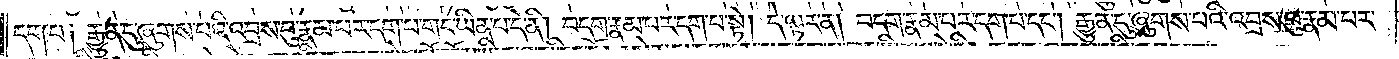དག་པ། རྒྱུན་དུ་ཞུགས་པའི་འབྲས་བུ་རྣམ་པར་དག་པ་གང་ཡིན་པ་དེ་ནི། བདག་རྣམ་བར་དག་པ་སྟེ། དེ་ལྟར། ན་བདག་རྣམ་པར་དག་པ་དང༌། རྒྱུན་དུ་ཞུགས་པའི་འབྲས་བུ་རྣམ་པར་
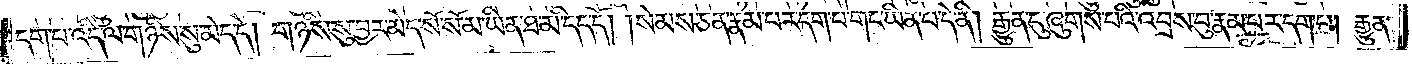དག་པ་འདི་ལ་གཉིས་སུ་མེད་དེ། གཉིས་སུ་བྱར་མེད་སོ་སོ་མ་ཡིན་ཐ་མི་དད་དོ། །སེམས་ཅན་རྣམ་པར་དག་པ་གང་ཡིན་པ་དེ་ནི། རྒྱུན་དུ་ཞུགས་པའི་འབྲས་བུ་རྣམ་པར་དག་པ། རྒྱུན་
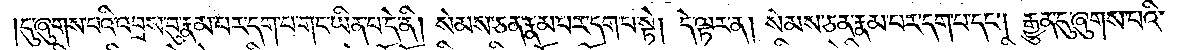དུ་ཞུགས་པའི་འབྲས་བུ་རྣམ་པར་དག་པ་གང་ཡིན་པ་དེ་ནི། སེམས་ཅན་རྣམ་པར་དག་པ་སྟེ། དེ་ལྟར་ན། སེམས་ཅན་རྣམ་པར་དག་པ་དང༌། རྒྱུན་དུ་ཞུགས་པའི་
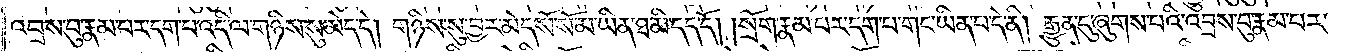འབྲས་བུ་རྣམ་པར་དག་པ་འདི་ལ་གཉིས་སུ་མེད་དེ། གཉིས་སུ་བྱར་མེད་སོ་སོ་མ་ཡིན་ཐ་མི་དད་དོ། །སྲོག་རྣམ་པར་དག་པ་གང་ཡིན་པ་དེ་ནི། རྒྱུན་དུ་ཞུགས་པའི་འབྲས་བུ་རྣམ་པར་
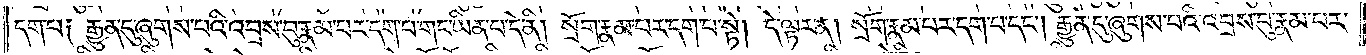དག་པ། རྒྱུན་དུ་ཞུགས་པའི་འབྲས་བུ་རྣམ་པར་དག་པ་གང་ཡིན་པ་དེ་ནི། སྲོག་རྣམ་པར་དག་པ་སྟེ། དེ་ལྟར་ན། སྲོག་རྣམ་པར་དག་པ་དང༌། རྒྱུན་དུ་ཞུགས་པའི་འབྲས་བུ་རྣམ་པར་
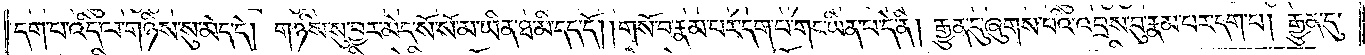དག་པ་འདི་ལ་གཉིས་སུ་མེད་དེ། གཉིས་སུ་བྱར་མེད་སོ་སོ་མ་ཡིན་ཐ་མི་དད་དོ། །གསོ་བ་རྣམ་པར་དག་པ་གང་ཡིན་པ་དེ་ནི། རྒྱུན་དུ་ཞུགས་པའི་འབྲས་བུ་རྣམ་པར་དག་པ། རྒྱུན་དུ་
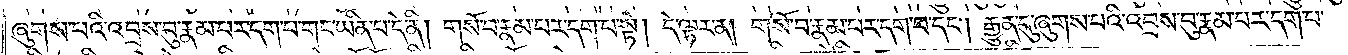ཞུགས་པའི་འབྲས་བུ་རྣམ་པར་དག་པ་གང་ཡིན་པ་དེ་ནི། གསོ་བ་རྣམ་པར་དག་པ་སྟེ། དེ་ལྟར་ན། གསོ་བ་རྣམ་པར་དག་པ་དང༌། རྒྱུན་དུ་ཞུགས་པའི་འབྲས་བུ་རྣམ་པར་དག་པ་
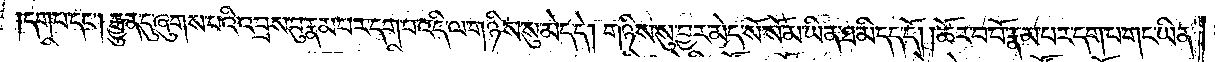དག་པ་དང༌། རྒྱུན་དུ་ཞུགས་པའི་འབྲས་བུ་རྣམ་པར་དག་པ་འདི་ལ་གཉིས་སུ་མེད་དེ། གཉིས་སུ་བྱར་མེད་སོ་སོ་མ་ཡིན་ཐ་མི་དད་དོ། །ཚོར་བ་པོ་རྣམ་པར་དག་པ་གང་ཡིན་
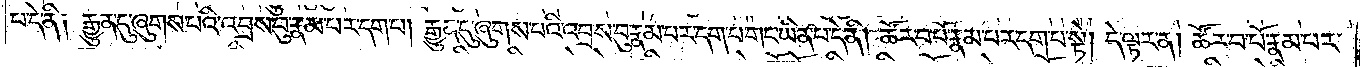པ་དེ་ནི། རྒྱུན་དུ་ཞུགས་པའི་འབྲས་བུ་རྣམ་པར་དག་པ། རྒྱུན་དུ་ཞུགས་པའི་འབྲས་བུ་རྣམ་པར་དག་པ་གང་ཡིན་པ་དེ་ནི། ཚོར་བ་པོ་རྣམ་པར་དག་པ་སྟེ། དེ་ལྟར་ན། ཚོར་བ་པོ་རྣམ་པར་
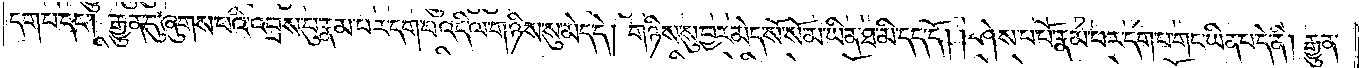དག་པ་དང༌། རྒྱུན་དུ་ཞུགས་པའི་འབྲས་བུ་རྣམ་པར་དག་པ་འདི་ལ་གཉིས་སུ་མེད་དེ། གཉིས་སུ་བྱར་མེད་སོ་སོ་མ་ཡིན་ཐ་མི་དད་དོ། །ཤེས་པ་པོ་རྣམ་པར་དག་པ་གང་ཡིན་པ་དེ་ནི། རྒྱུན་
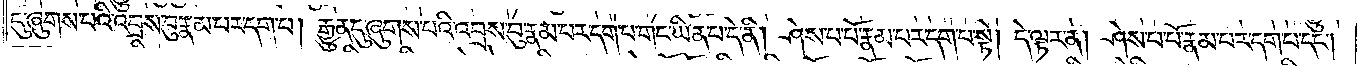དུ་ཞུགས་པའི་འབྲས་བུ་རྣམ་པར་དག་པ། རྒྱུན་དུ་ཞུགས་པའི་འབྲས་བུ་རྣམ་པར་དག་པ་གང་ཡིན་པ་དེ་ནི། ཤེས་པ་པོ་རྣམ་པར་དག་པ་སྟེ། དེ་ལྟར་ན། ཤེས་པ་པོ་རྣམ་པར་དག་པ་དང༌།
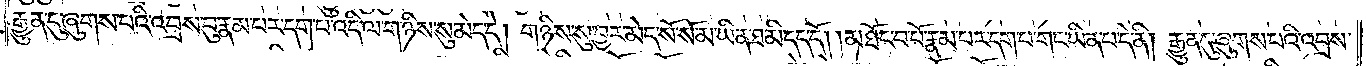རྒྱུན་དུ་ཞུགས་པའི་འབྲས་བུ་རྣམ་པར་དག་པ་འདི་ལ་གཉིས་སུ་མེད་དེ། གཉིས་སུ་བྱར་མེད་སོ་སོ་མ་ཡིན་ཐ་མི་དད་དོ། །མཐོང་བ་པོ་རྣམ་པར་དག་པ་གང་ཡིན་པ་དེ་ནི། རྒྱུན་དུ་ཞུགས་པའི་འབྲས་
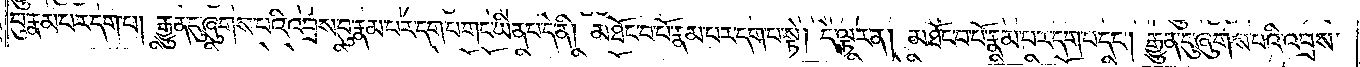བུ་རྣམ་པར་དག་པ། རྒྱུན་དུ་ཞུགས་པའི་འབྲས་བུ་རྣམ་པར་དག་པ་གང་ཡིན་པ་དེ་ནི། མཐོང་བ་པོ་རྣམ་པར་དག་པ་སྟེ། དེ་ལྟར་ན། མཐོང་བ་པོ་རྣམ་པར་དག་པ་དང༌། རྒྱུན་དུ་ཞུགས་པའི་འབྲས་
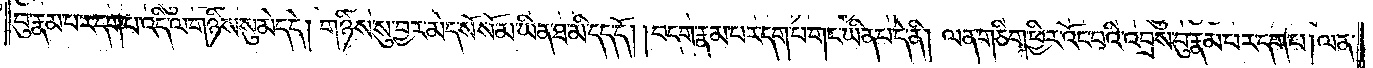བུ་རྣམ་པར་དག་པ་འདི་ལ་གཉིས་སུ་མེད་དེ། གཉིས་སུ་བྱར་མེད་སོ་སོ་མ་ཡིན་ཐ་མི་དད་དོ། །བདག་རྣམ་པར་དག་པ་གང་ཡིན་པ་དེ་ནི། ལན་ཅིག་ཕྱིར་འོང་བའི་འབྲས་བུ་རྣམ་པར་དག་པ། ལན་
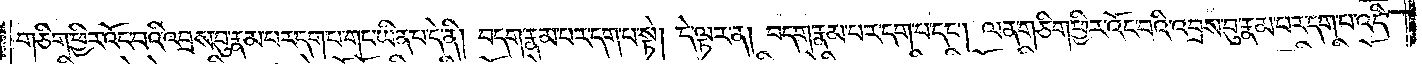ཅིག་ཕྱིར་འོང་བའི་འབྲས་བུ་རྣམ་པར་དག་པ་གང་ཡིན་པ་དེ་ནི། བདག་རྣམ་པར་དག་པ་སྟེ། དེ་ལྟར་ན། བདག་རྣམ་པར་དག་པ་དང༌། ལན་ཅིག་ཕྱིར་འོང་བའི་འབྲས་བུ་རྣམ་པར་དག་པ་འདི་
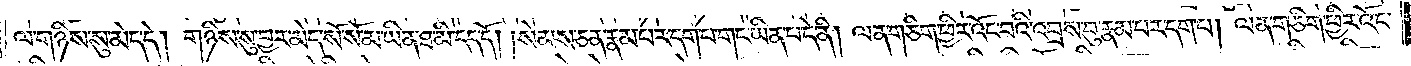ལ་གཉིས་སུ་མེད་དེ། གཉིས་སུ་བྱར་མེད་སོ་སོ་མ་ཡིན་ཐ་མི་དད་དོ། །སེམས་ཅན་རྣམ་པར་དག་པ་གང་ཡིན་པ་དེ་ནི། ལན་ཅིག་ཕྱིར་འོང་བའི་འབྲས་བུ་རྣམ་པར་དག་པ། ལན་ཅིག་ཕྱིར་འོང་
